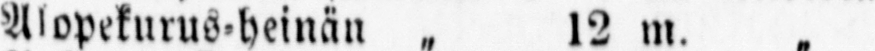Alopekurus-heinän „ 12 m. „
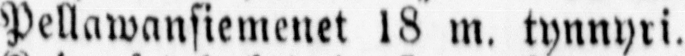Pellawansiemenet 18 m. tynnyri.
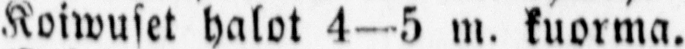Koiwuset halot 4-5 m. kuorma.
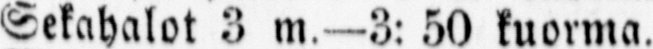Sekahalot 3 m.—3: 50 kuorma.
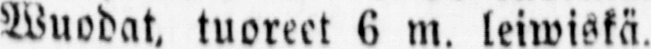Wuodat, tuoreet 6 m. leiwiskä.
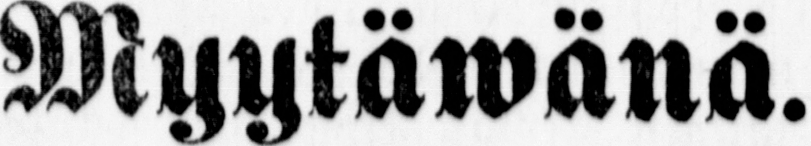Myytäwänä.
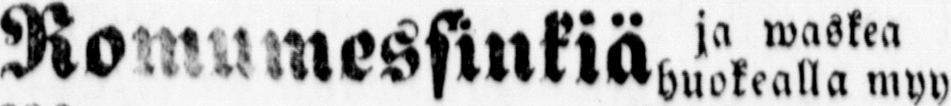Romumessinkiä ja waskea
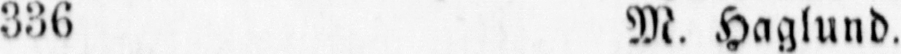336 M. Haglund.
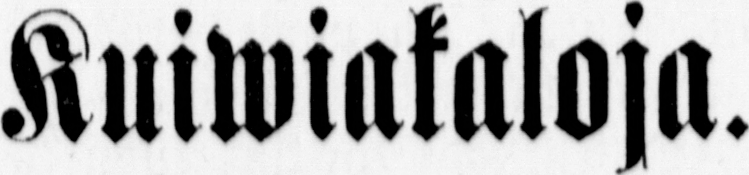Kuiwiakaloja.
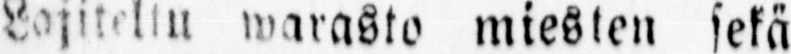Lajiteltu warasto miesten sekä
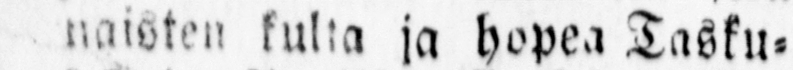naisten kulta ja hopea Tasku-
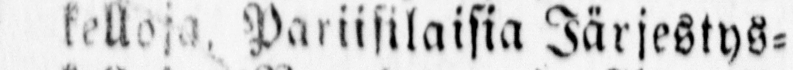kelloja, Pariisilaisia Järjestys-
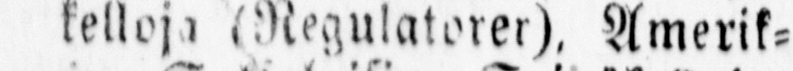kelloja (Regulatorer), Amerik-
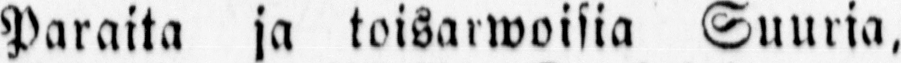Paraita ja toisarwoisia Suuria.
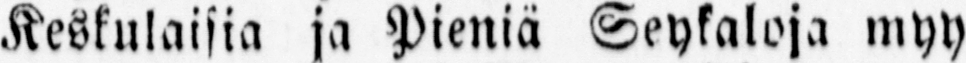Keskulaisia ja Pieniä Seykaloja myy
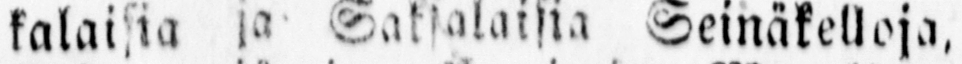kalaisia ja Saksalaisia Seinäkelloja,
